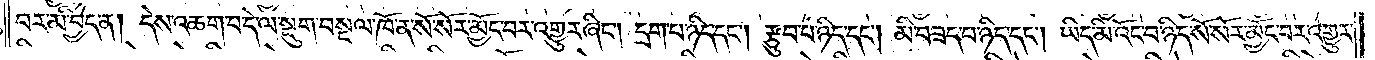བར་མི་བྱེད་ན། དེས་འཆག་པ་དེ་ལ་སྡུག་བསྔལ་ཁོ་ན་སོ་སོར་མྱོང་བར་འགྱུར་ཞིང༌། དྲག་པ་ཉིད་དང༌། རྩུབ་པ་ཉིད་དང༌། མི་བཟད་པ་ཉིད་དང༌། ཡིད་མི་འོང་བ་ཉིད་སོ་སོར་མྱོང་བར་འགྱུར་
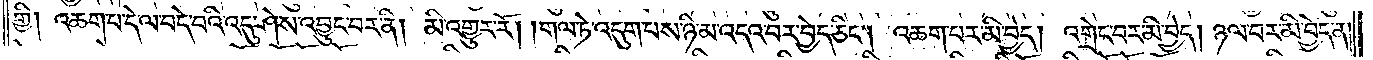གྱི། འཆག་པ་དེ་ལ་བདེ་བའི་འདུ་ཤེས་འབྱུང་བར་ནི། མི་འགྱུར་རོ། །གལ་ཏེ་འདུག་པས་ཉི་མ་འདའ་བར་བྱེད་ཅིང༌། འཆག་པར་མི་བྱེད། འགྲེང་བར་མི་བྱེད། ཉལ་བར་མི་བྱེད་ན།
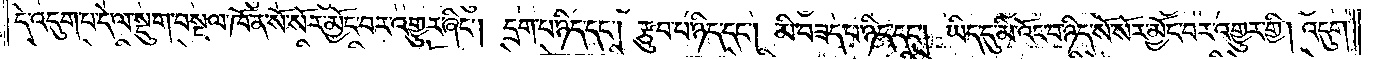དེ་འདུག་པ་དེ་ལ་སྡུག་བསྔལ་ཁོ་ན་སོ་སོར་མྱོང་བར་འགྱུར་ཞིང༌། དྲག་པ་ཉིད་དང༌། རྩུབ་པ་ཉིད་དང༌། མི་བཟད་པ་ཉིད་དང༌། ཡིད་དུ་མི་འོང་བ་ཉིད་སོ་སོར་མྱོང་བར་འགྱུར་གྱི། འདུག་
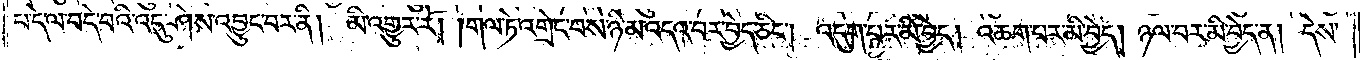པ་དེ་ལ་བདེ་བའི་འདུ་ཤེས་འབྱུང་བར་ནི། མི་འགྱུར་རོ། །གལ་ཏེ་འགྲེང་བས་ཉི་མའི་འདའ་བར་བྱེད་ཅིང༌། འདུག་པར་མི་བྱེད། འཆག་པར་མི་བྱེད། ཉལ་བར་མི་བྱེད་ན། དེས་
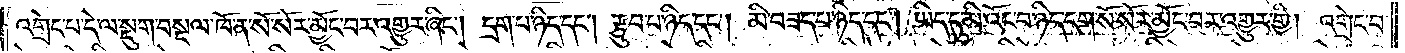འགྲེང་པ་དེ་ལ་སྡུག་བསྔལ་ཁོ་ན་སོ་སོར་མྱོང་བར་འགྱུར་ཞིང༌། དྲག་པ་ཉིད་དང༌། རྩུབ་པ་ཉིད་དང༌། མི་བཟད་པ་ཉིད་དང༌། ཡིད་དུ་མི་འོང་བ་ཉིད་དག་སོ་སོར་མྱོང་བར་འགྱུར་གྱི། འགྲེང་བ་
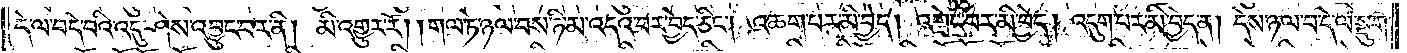དེ་ལ་བདེ་བའི་འདུ་ཤེས་འབྱུང་བར་ནི། མི་འགྱུར་རོ། །གལ་ཏེ་ཉལ་བས་ཉི་མ་འདའ་བར་བྱེད་ཅིང༌། འཆག་པར་མི་བྱེད། འགྲེང་བར་མི་བྱེད། འདུག་པར་མི་བྱེད་ན། དེས་ཉལ་བ་དེ་ལ་སྡུག་
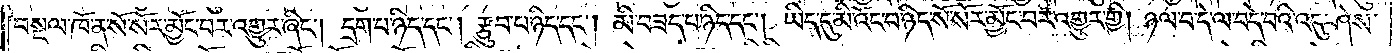བསྔལ་ཁོ་ན་སོ་སོར་མྱོང་བར་འགྱུར་ཞིང༌། དྲག་པ་ཉིད་དང༌། རྩུབ་པ་ཉིད་དང༌། མི་བཟད་པ་ཉིད་དང༌། ཡིད་དུ་མི་འོང་བ་ཉིད་སོ་སོར་མྱོང་བར་འགྱུར་གྱི། ཉལ་བ་དེ་ལ་བདེ་བའི་འདུ་ཤེས་
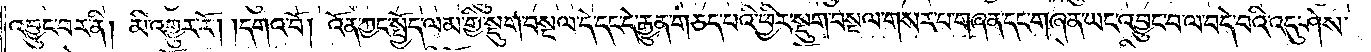འབྱུང་བར་ནི། མི་འགྱུར་རོ། དགའ་བོ། འོན་ཀྱང་སྤྱོད་ལམ་གྱི་སྡུག་བསྔལ་དེ་དང་དེ་རྒྱུན་བཅད་པའི་ཕྱིར་སྡུག་བསྔལ་གསར་བ་གཞན་དང་གཞན་ཡང་འབྱུང་བ་ལ་བདེ་བའི་འདུ་ཤེས་
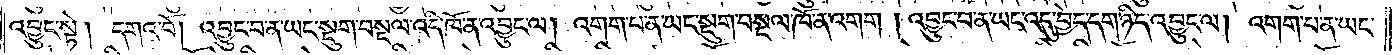འབྱུང་སྟེ། དགའ་བོ། །འབྱུང་བ་ན་ཡང་སྡུག་བསྔལ་འདི་ཁོ་ན་འབྱུང་ལ། འགག་པ་ན་ཡང་སྡུག་བསྔལ་ཁོ་ན་འགག །འབྱུང་བ་ན་ཡང་འདུ་བྱེད་དག་ཉིད་འབྱུང་ལ། འགག་པ་ན་ཡང་
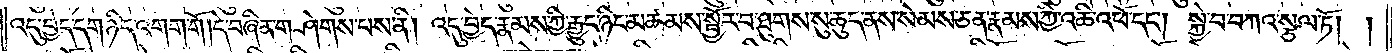འདུ་བྱེད་དག་ཉིད་འགག་གོ །དེ་བཞིན་གཤེགས་པས་ནི། འདུ་བྱེད་རྣམས་ཀྱི་རྒྱུད་ཉིང་མཚམས་སྦྱོར་བ་ཐུགས་སུ་ཆུད་ནས་སེམས་ཅན་རྣམས་ཀྱི་འཆི་འཕོ་དང༌། སྐྱེ་བ་བཀའ་སྩལ་ཏོ། །
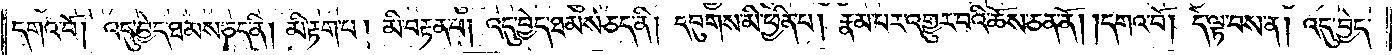དགའ་བོ། འདུ་བྱེད་ཐམས་ཅད་ནི། མི་རྟག་པ། མི་བརྟན་པ། འདུ་བྱེད་ཐམས་ཅད་ནི། དབུགས་མི་ཕྱིན་པ། རྣམ་པར་འགྱུར་བའི་ཆོས་ཅན་ནོ། །དགའ་བོ། དེ་ལྟ་བས་ན། འདུ་བྱེད་
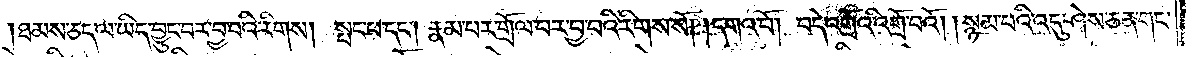ཐམས་ཅད་ལ་ཡིད་བྱུང་བར་བྱ་བའི་རིགས། སྤང་པ་དང༌། རྣམ་པར་གྲོལ་བར་བྱ་བའི་རིགས་སོ། །དགའ་བོ། བདེ་འགྲོའི་འགྲོ་བའོ། །སྙམ་པའི་འདུ་ཤེས་ཅན་གང་
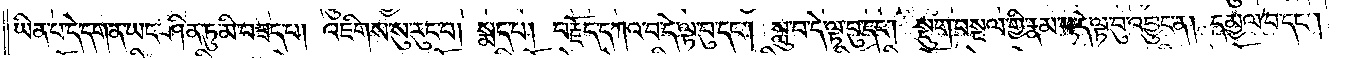ཡིན་པ་དེ་དག་ན་ཡང་ཤིན་ཏུ་མི་བཟད་པ། འཇིགས་སུ་རུང་བ། སྨད་པ། བརྗོད་དཀའ་བ་དེ་ལྟ་བུ་དང༌། སླུ་བ་དེ་ལྟ་བུ་དང༌། སྡུག་བསྔལ་གྱི་རྣམ་པ་དེ་ལྟ་བུ་འབྱུང་ན། དམྱལ་བ་དང༌།
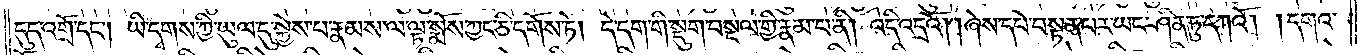དུད་འགྲོ་དང༌། ཡི་དྭགས་ཀྱི་ཡུལ་དུ་སྐྱེས་པ་རྣམས་ལ་ལྟ་སྨོས་ཀྱང་ཅི་དགོས་ཏེ། དེ་དག་གི་སྡུག་བསྔལ་གྱི་རྣམ་པ་ནི། འདི་འདྲའོ། །ཞེས་དཔེ་བསྟན་པར་ཡང་ཤིན་ཏུ་དཀའོ། །དགའ་
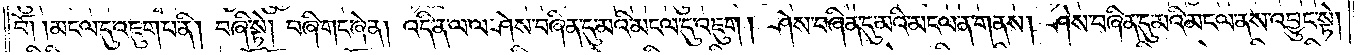བོ། །མངལ་དུ་འཇུག་པ་ནི། བཞི་སྟེ། བཞི་གང་ཞེ་ན། འདི་ན་ལ་ལ་ཤེས་བཞིན་དུ་མའི་མངལ་དུ་འཇུག། ཤེས་བཞིན་དུ་མའི་མངལ་ན་གནས། ཤེས་བཞིན་དུ་མའི་མངལ་ནས་འབྱུང་སྟེ།
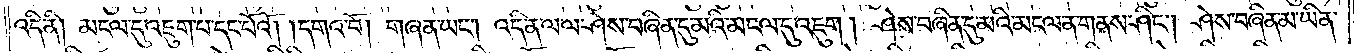འདི་ནི། མངལ་དུ་འཇུག་པ་དང་པོའོ། །དགའ་བོ། གཞན་ཡང༌། འདི་ན་ལ་ལ་ཤེས་བཞིན་དུ་མའི་མངལ་དུ་འཇུག། ཤེས་བཞིན་དུ་མའི་མངལ་ན་གནས་ཤིང༌། ཤེས་བཞིན་མ་ཡིན་
